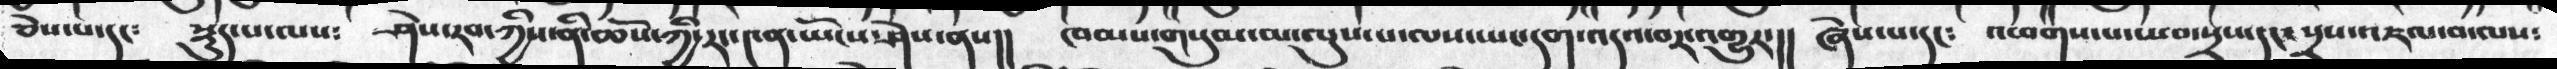ཅེས་པ་དང༴ སྡུད་པ་ལས༴ ཤེས་རབ་ཀྱིས་ནི་ཆོས་ཀྱི་རང་༤ན་ཡོངས་ཤེས་ནས།། ཁམས་གསུམ་མ་ལུས་པ་ལས་ཡང་དག་འདའ་བར་འགྱུར་།། ཞེས་པ་དང༴ འཕགས་པ་ཡབ་སྲས་དང་སྲས་འཇལ་བ་ལས༴
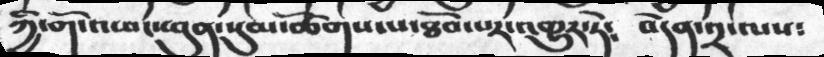ཀྱི་གོ་འཕང་ཕུན་སུམ་ཚོགས་པ་ཐོབ་པར་འགྱུར་ཏེ༴ བདེན་༢་ལས༴
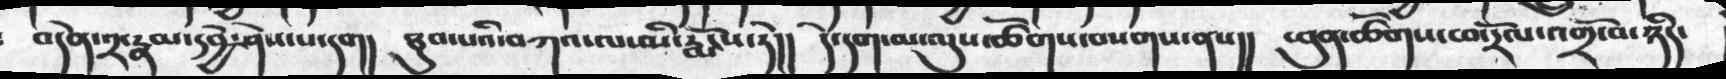བདེན་༢་རྣམ་དབྱེ་ཤེས་པ་དག། ཐུབ་པའི་བཀའ་ལ་མི་རྨོངས་ཏེ།། དེ་དག་མ་ལུས་ཚོགས་བསགས་ནས།། ཕུན་ཚོགས་ཕ་རོལ་འགྲོ་བ་ཉིད་
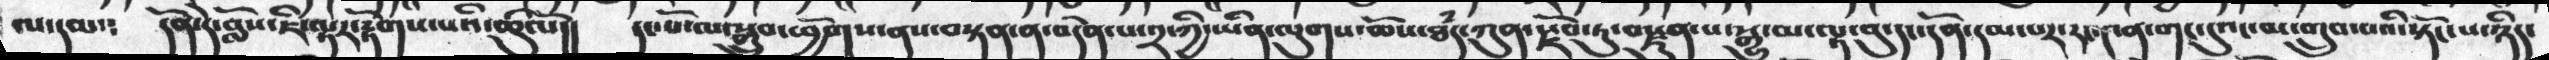ལ་དམ༴ དོན་དེ་བློས་ཇི་ལྟར་རྟོགས་པའི་ཚུལོ།། དང་པོ་ལ་སྒྲུབ་ཕྱོགས་ནས་བསྟན་ན་བདེན་པ་༢་ཀྱི་ཡིན་ལུགས་ཆོས་ཐཾད་ཀུན་སྫོབ་ཏུ་བསྫུན་པ་སྒྱུ་མ་ལྟ་བུ་དང་དོན་དམ་པར་རང་༤ན་གང་དུའང་མ་གྲུབ་པའི་སྟོང་པ་ཉིད་
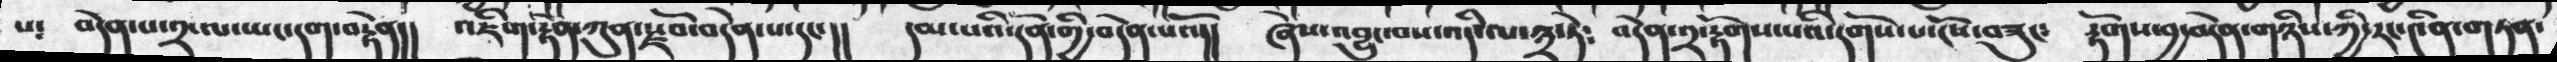པ༴ བདེན་པ་༢་ལ་ཡང་དག་བརྟེན།། འཇིག་རྟེན་ཀུན་སྫོབ་བདེན་པ་དང་།། དམ་པའི་དོན་གྱི་བདེན་པའོ།། ཞེས་འབྱུང་བས་འདི་ལ་༣་ཏེ༴ བདེན་༢་རྟོགས་པའི་དགོས་པ་ངོས་བཟུང༴ རྟོགས་བྱ་བདེན་གཉིས་ཀྱི་རང་༤ནི་གཏན་
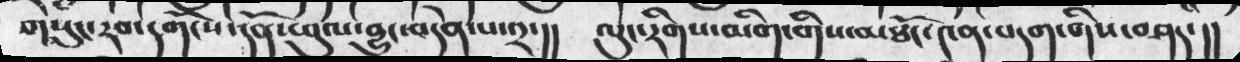གསུང་རབ་དགོངས་དོན་ཕུལ་བྱུང་བདེན་པ་༢་།། ལུང་རིགས་མིག་གིས་མཐོང་༤ན་བདག་གིས་བཤད་།།
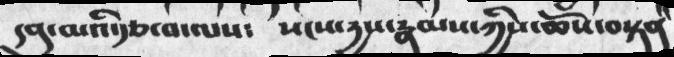དབུ་མའི་རྩ་བ་ལས༴ སངས་དྱས་རྣམས་ཀྱིས་ཆོས་བསྟན
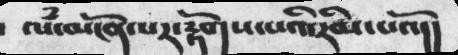ལཾ་མངོན་པར་རྟོགས་པའི་རིམ་པའོ།།
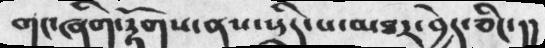གང་ཞིག་རྟོགས་ནས་སྲིད་པ་མཐར་བྱེད་ཅིང་།།
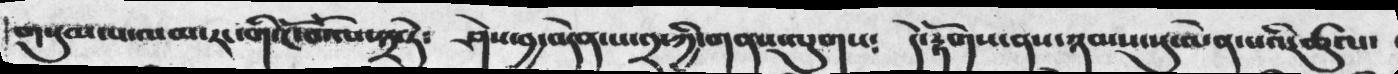གསུམ་ལ་ལམ་རང་གི་ངོ་བོ་ལ་༣་ཏེ༴ ཤེས་བྱ་བདེན་པ་༢་ཀྱི་གནས་ལུགས༴ དེ་རྟོགས་ནས་ཉམས་སུ་ལེན་པའི་ཚུལ་
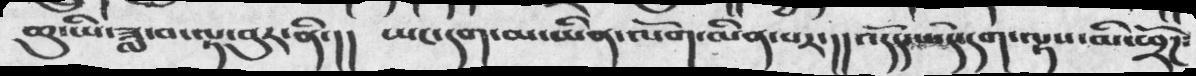ཆུ་ཡི་ཟླ་བ་ལྟ་བུར་ནི་།། ཡང་དག་མ་ཡིན་ལོག་མིན་པར་།། འདོད་པ་དེ་དག་ལྟས་མི་ཕྲོཌ༴
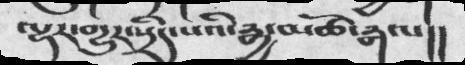ལྷར་གྱུར་སྲིད་པའི་རྒྱ་མཚོ་རྒལ།།
